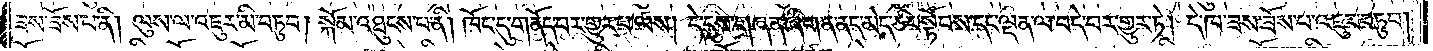ཟས་ཟོས་པ་ནི། ལུས་ལ་འཇུར་མི་བཏུབ། སྐོམ་འཐུངས་པ་ནི། ཁོང་དུ་གནོད་པར་གྱུར་པ་ལས། དེ་དུས་གཞན་ཞིག་ན་ནད་མེད་ཅིང་སྟོབས་དང་ལྡན་ལ་བདེ་བར་གྱུར་ཏེ། དེ་ཁ་ཟས་ཟོས་པ་འཇུར་བཏུབ།
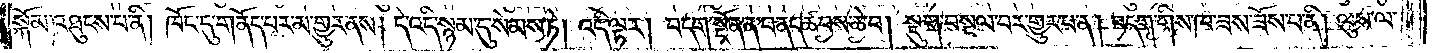སྐོམ་འཐུངས་པ་ནི། ཁོང་དུ་གནོད་པར་མ་གྱུར་ནས། དེ་འདི་སྙམ་དུ་སེམས་ཏེ། འདི་ལྟར། བདག་སྔོན་ན་བ་ནད་ཚབས་ཆེ་བ། སྡུག་བསྔལ་བར་གྱུར་པ་ན། བདག་གིས་ཁ་ཟས་ཟོས་པ་ནི། ལུས་ལ་
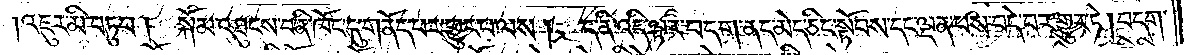འཇུར་མི་བཏུབ། སྐོམ་འཐུངས་པ་ནི་ཁོང་དུ་གནོད་པར་གྱུར་པ་ལས། ད་ནི་འདི་ལྟར་བདག་ནད་མེད་ཅིང་སྟོབས་དང་ལྡན་པས་བདེ་བར་གྱུར་ཏེ། བདག
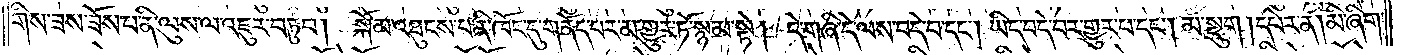གིས་ཟས་ཟོས་པ་ནི་ལུས་ལ་འཇུར་བཏུབ། སྐོམ་འཐུངས་པ་ནི་ཁོང་དུ་གནོད་པར་མ་གྱུར་ཏོ་སྙམ་སྟེ། དེ་གཞི་དེ་ལས་བདེ་བ་དང༌། ཡིད་བདེ་བར་གྱུར་པ་དང༌། མ་སྡུག །དཔེར་ན། མི་ཞིག་
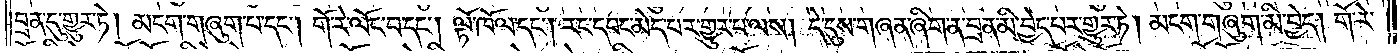བྲན་དུ་གྱུར་ཏེ། མངག་གཞུག་པ་དང༌། གོ་རེ་ལོང་བ་དང༌། ལྟོ་ཁོལ་དང༌། རང་དབང་མེད་པར་གྱུར་པ་ལས། དེ་དུས་གཞན་ཞིག་ན་བྲན་མི་བྱེད་པར་གྱུར་ཏེ། མངག་གཞུག་མི་བྱེད། གོ་རེ་
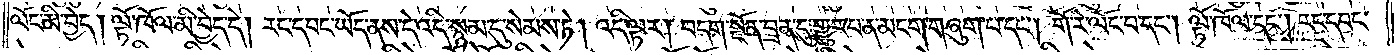ལོང་མི་བྱེད། ལྟོ་ཁོལ་མི་བྱེད་དེ། རང་དབང་ཡོད་ནས་དེ་འདི་སྙམ་དུ་སེམས་ཏེ། འདི་ལྟར། བདག་སྔོན་བྲན་དུ་གྱུར་པ་ན་མངག་གཞུག་པ་དང༌། གོ་རེ་ལོང་བ་དང༌། ལྟོ་ཁོལ་དང༌། རང་དབང་
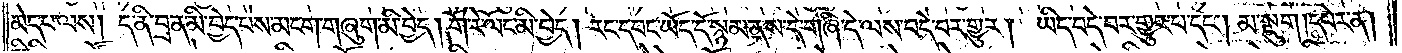མེད་པ་ལས། ད་ནི་བྲན་མི་བྱེད་པས་མངག་གཞུག་མི་བྱེད། གོ་རེ་ལོང་མི་བྱེད། རང་དབང་ཡོད་དོ་སྙམ་ནས་དེ་གཞི་དེ་ལས་བདེ་བར་གྱུར། ཡིད་བདེ་བར་གྱུར་པ་དང༌། མ་སྡུག །དཔེར་ན།
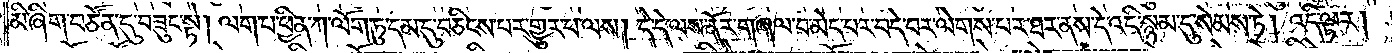མི་ཞིག་བཙོན་དུ་བཟུང་སྟེ། ལག་པ་ཕྱིན་ཀ་ལོག་ཏུ་དམ་དུ་བཅིངས་པར་གྱུར་པ་ལས། དེ་དེ་ལས་ནོར་གཞལ་བ་མེད་པར་བདེ་བར་ལེགས་པར་ཐར་ནས་དེ་འདི་སྙམ་དུ་སེམས་ཏེ། འདི་ལྟར།
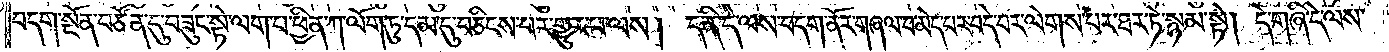བདག་སྔོན་བཙོན་དུ་བཟུང་སྟེ་ལག་པ་ཕྱིན་ཀ་ལོག་ཏུ་དམ་དུ་བཅིངས་པར་གྱུར་པ་ལས། ད་ནི་དེ་ལས་བདག་ནོར་གཞལ་བ་མེད་པར་བདེ་བར་ལེགས་པར་ཐར་ཏེ་སྙམ་སྟེ། དེ་གཞི་དེ་ལས་
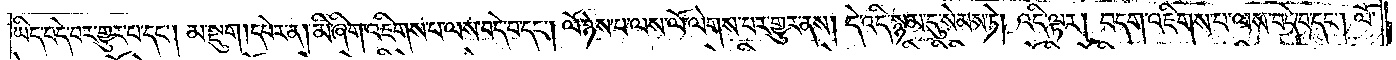ཡིད་བདེ་བར་གྱུར་པ་དང༌། མ་སྡུག །དཔེར་ན། མི་ཞིག་འཇིགས་པ་ལས་བདེ་བ་དང༌། ལོ་ཉེས་པ་ལས་ལོ་ལེགས་པར་གྱུར་ནས། དེ་འདི་སྙམ་དུ་སེམས་ཏེ། འདི་ལྟར། བདག་འཇིགས་པ་ལས་བདེ་བ་དང༌། ལོ་
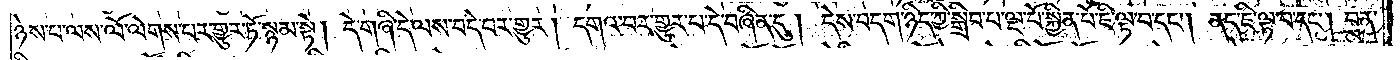ཉེས་པ་ལས་ལོ་ལེགས་པར་གྱུར་ཏོ་སྙམ་སྟེ། དེ་གཞི་དེ་ལས་བདེ་བར་གྱུར། དགའ་བར་གྱུར་བ་དེ་བཞིན་དུ། དེས་བདག་ཉིད་ཀྱི་སྒྲིབ་པ་ལྔ་པོ་སྐྱིན་པོ་ཇི་ལྟ་བ་དང༌། ནད་ཇི་ལྟ་བ་དང༌། བྲན་
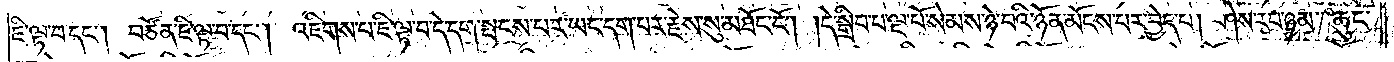ཇི་ལྟ་བ་དང༌། བཙོན་ཇི་ལྟ་བ་དང༌། འཇིགས་པ་ཇི་ལྟ་བ་དེ་དག་སྤངས་པར་ཡང་དག་པར་རྗེས་སུ་མཐོང་ངོ༌། །དེ་སྒྲིབ་པ་ལྔ་པོ་སེམས་ཉེ་བའི་ཉོན་མོངས་པར་བྱེད་པ། ཤེས་རབ་ཉམ་ཆུང་
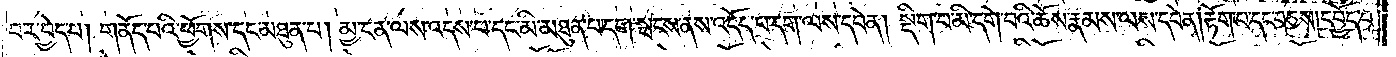བར་བྱེད་པ། གནོད་པའི་ཕྱོགས་དང་མཐུན་པ། མྱ་ངན་ལས་འདས་པ་དང་མི་མཐུན་པ་དག་སྤངས་ནས་འདོད་པ་དག་ལས་དབེན། སྡིག་པ་མི་དགེ་བའི་ཆོས་རྣམས་ལས་དབེན། རྟོག་པ་དང་བཅས། དཔྱོད་པ་
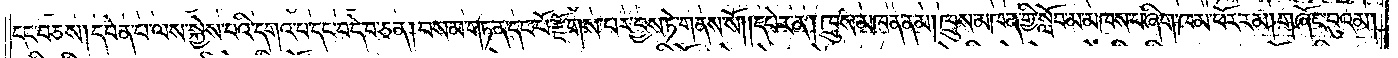དང་བཅས།དབེན་པ་ལས་སྐྱེས་པའི་དགའ་བ་དང་བདེ་བ་ཅན།བསམ་གཏན་དང་པོ་རྫོགས་པར་བྱས་ཏེ་གནས་སོ༎དཔེར་ན། ཁྲུས་མཁན་ནམ།ཁྲུས་མཁན་གྱི་སློབ་མ་མཁས་པ་ཞིག་ཁམ་ཕོར་རམ།གཞོང་བུའམ།
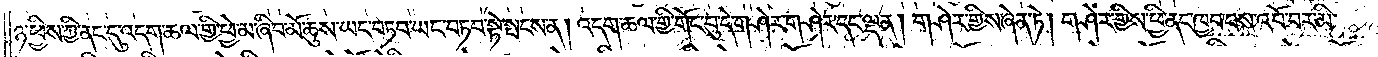ཉ་ཕྱིས་ཀྱི་ནང་དུ་འདག་ཆལ་གྱི་ཕྱེ་མ་ཞིབ་མོ་ཆུས་ཡང་བཏབ་ཡང་བཏབ་སྟེ་སྤངས་ན། འདག་ཆལ་གྱི་གོང་བུ་དེ་གཤེར་གཤེར་དང་ལྡན། གཤེར་གྱིས་ཞེན་ཏེ། གཤེར་གྱིས་ཕྱི་ནང་ཁྱབ་པས་འབོ་བར་མི་
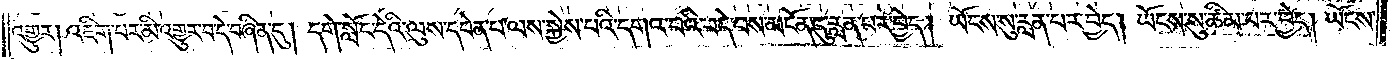འགྱུར། འཇིག་པར་མི་འགྱུར་བ་དེ་བཞིན་དུ། དགེ་སློང་དེའི་ལུས་དབེན་པ་ལས་སྐྱེས་པའི་དགའ་བའི་བདེ་བས་མངོན་དུ་རླན་པར་བྱེད། ཡོངས་སུ་རླན་པར་བྱེད། ཡོངས་སུ་ཚིམ་པར་བྱེད། ཡོངས་
